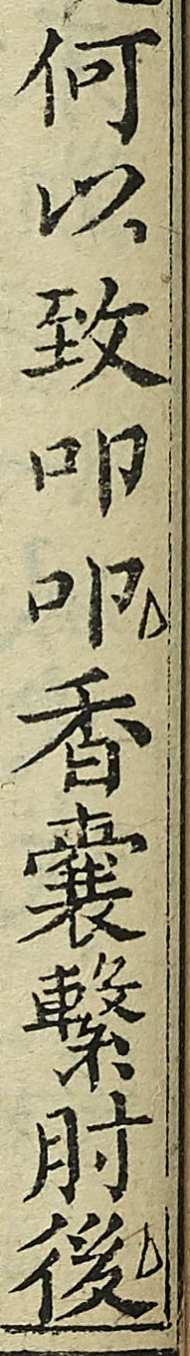何以致叩叩香囊繫肘後
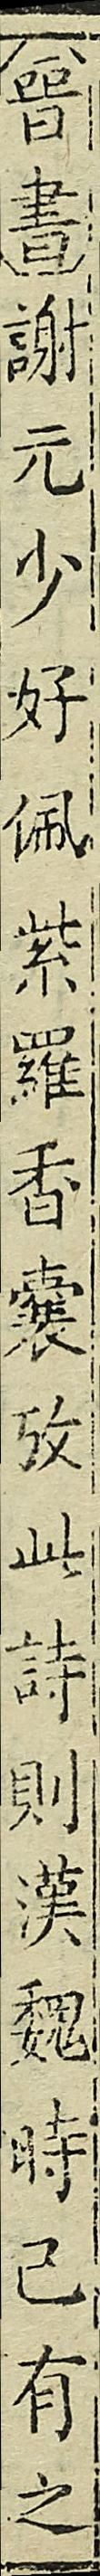（晉書）謝元少好佩紫羅香囊攷此詩則漢魏時已有之
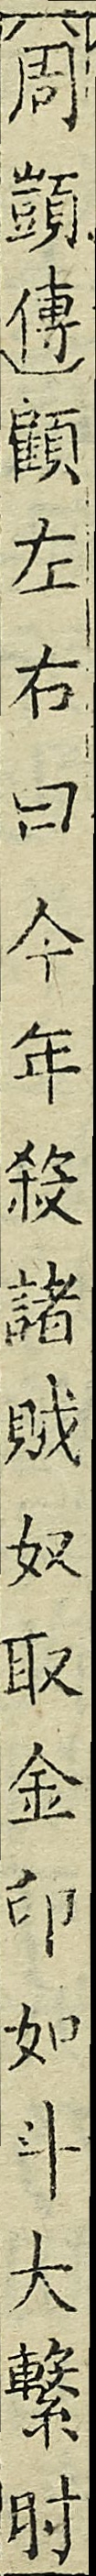（周顗傳）顧左右曰今年殺諸賊奴取金印如斗大繋肘
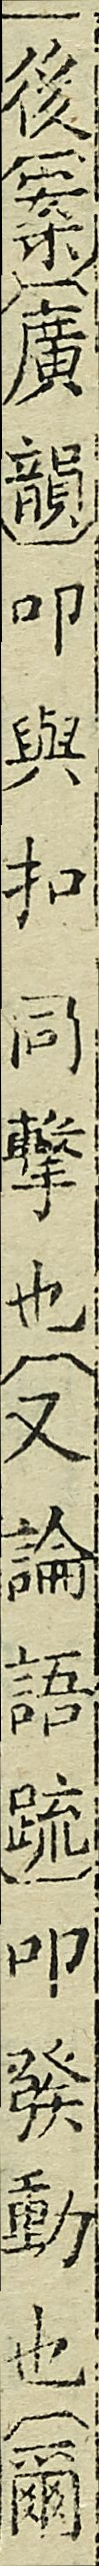後（案）（廣韻）叩與扣同擊也（又論語疏）叩發動也(爾
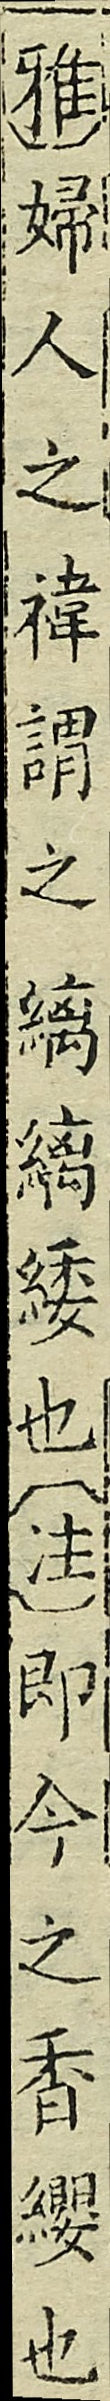雅）婦人之褘謂之縭縭緌也（注）即今之香纓也
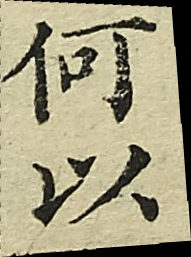何以
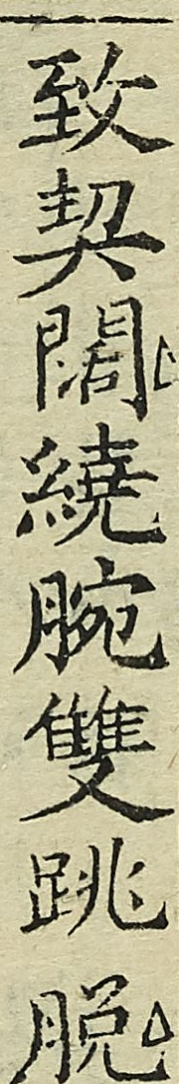致契闊繞腕雙跳脫
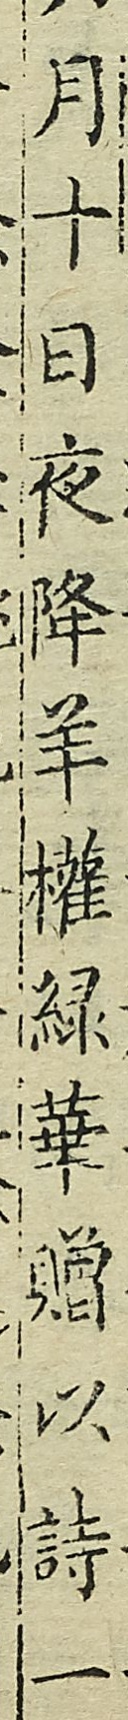月十日夜降羊權綠華贈以詩一
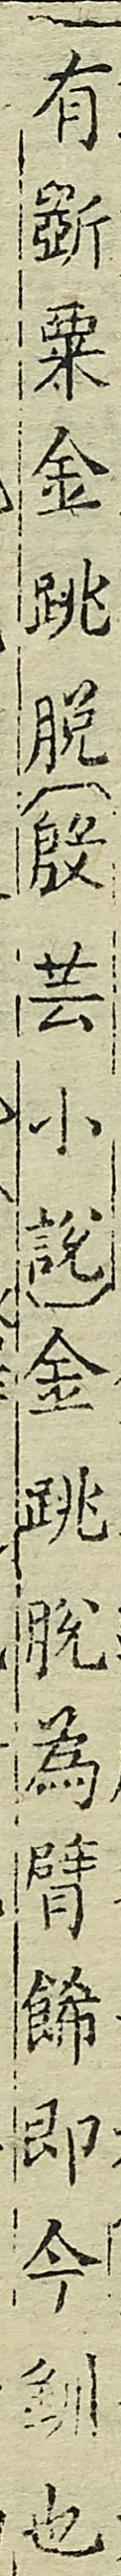有斵粟金跳脫（殷芸小説）金跳脫為臂飾即今紃也
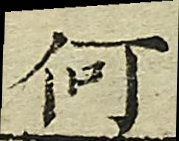何
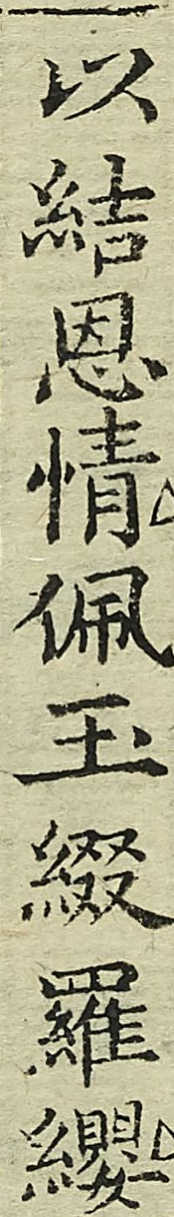以結恩情佩玉綴羅纓
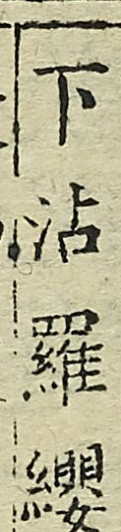下沾羅纓
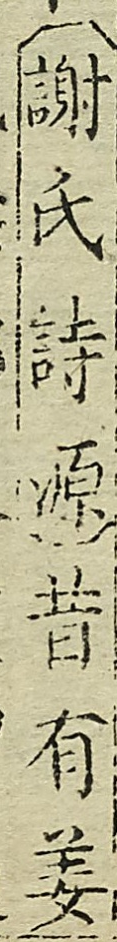（謝氏詩源）昔有姜
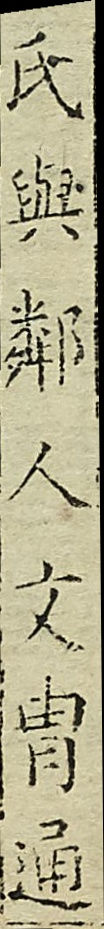氏與鄰人文冑通
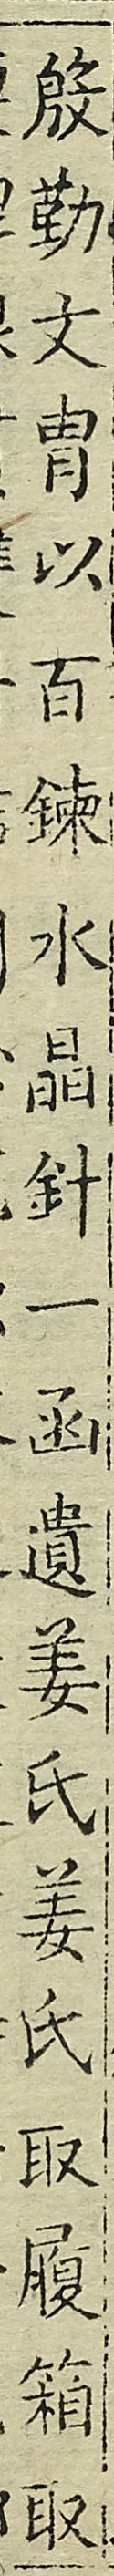殷勤文冑以百鍊水晶針一函遺姜氏姜氏取履箱取
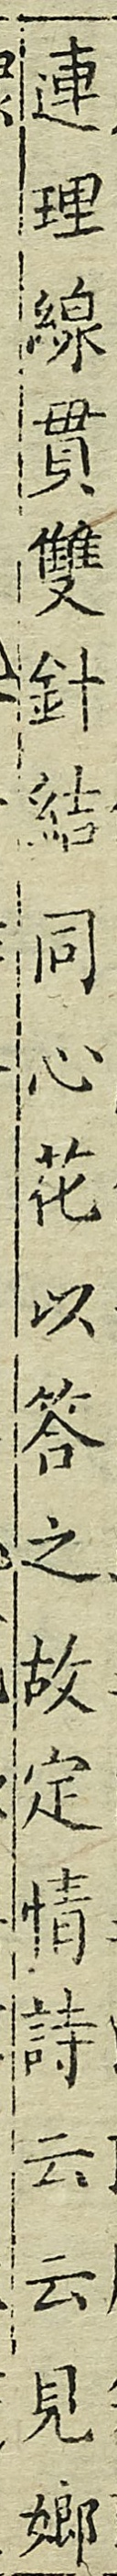連理線貫雙針結同心花以答之故定情詩云云見嫏
